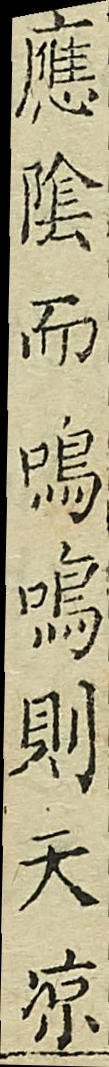應陰而鳴鳴則天涼
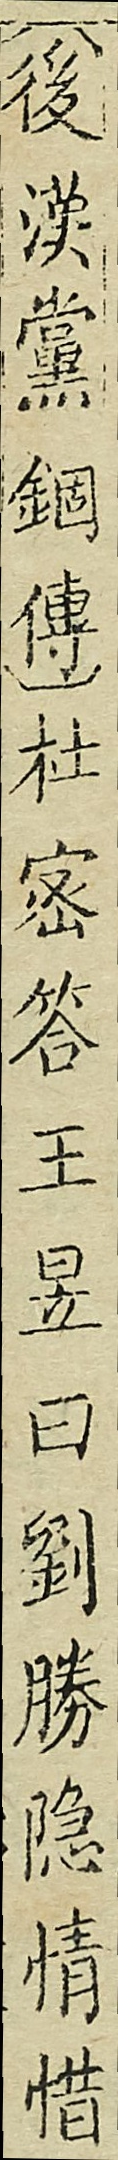（後漢黨錮傳）杜密答王昱曰劉勝隱情惜
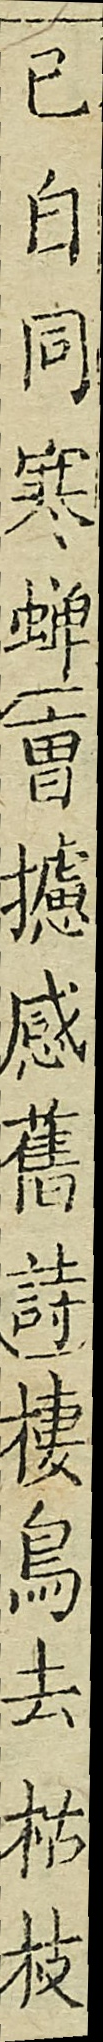已白同寒蟬（曹攄感舊詩）棲鳥去枯枝
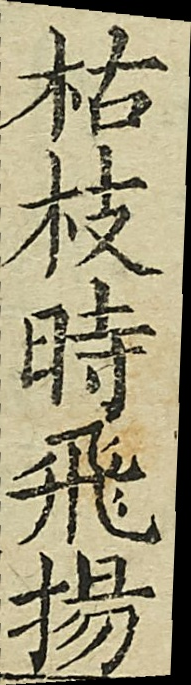枯枝時飛揚
